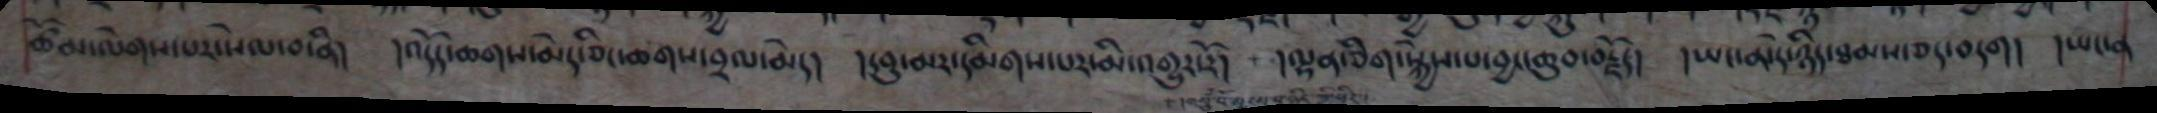ཚོམ་ལེགས་པར་སེམ་བ་ནི།    །འདོད་ཆགས་མེད་ཅིང་ཆགས་བྲལ་མེད།   །དབུ་མར་དམིགས་པར་མི་འགྱུར།   །ལྷན་ཅིག་སྐྱེས་པ་བྱང་ཆུབ་བརྗོད།  །ཡང་མེད་ཉིད་ཐམས་ཅད་བདག།  །ཡང་ན་
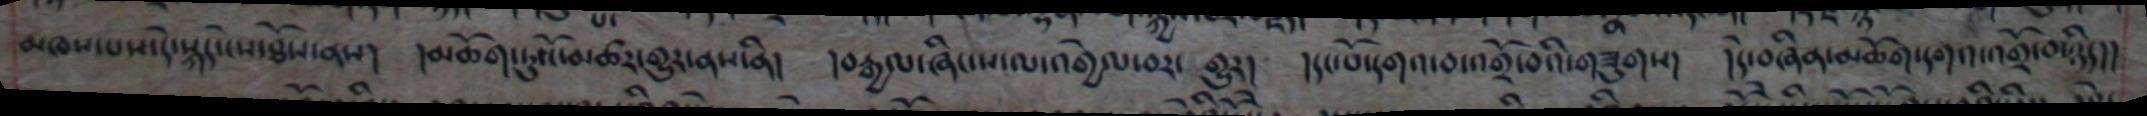མཁས་པས་དེ་སྐད་ངེས་ཐོས་ནས། །མཆོག་ཏུ་ངོ་མཚར་གྱུར་ནས་ནི། །བརྒྱལ་ཞིང་ས་ལ་འགྱེལ་བར་ གྱུར། །དང་པོ་དགའ་བ་འགྲོ་བའི་གཟུགས། །དེ་བཞིན་མཆོག་དགའ་འགྲོ་བ་ཉིད།།
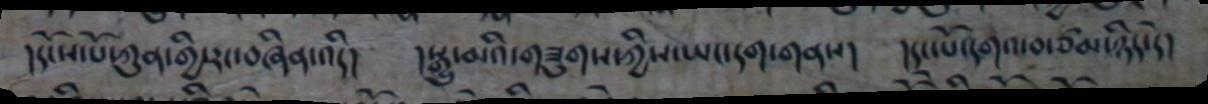།དངོས་པོ་ཀུན་གྱི་རང་བཞིན་འདི། །སྒྱུ་མའི་གཟུགས་ཀྱིས་ཡང་དག་གནས། །དང་པོ་དགའ་བ་ཙམ་ཉིད་དེ།
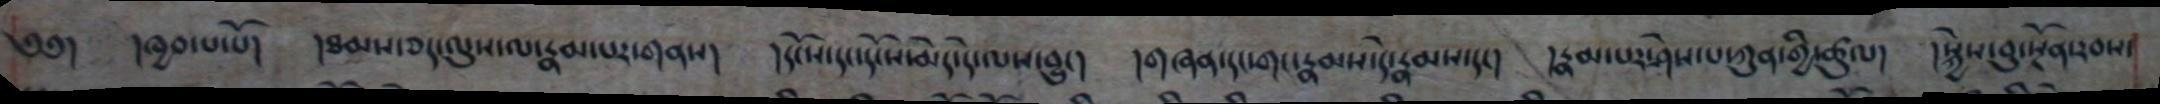༄༅། །ཁྱབ་པ་པོ། །ཐམས་ཅད་ལུས་ལ་རྣམ་པར་གནས། །དངོས་དང་དངོས་མེད་དེ་ལས་བྱུང། །གཞན་དང་གང་རྣམས་དེ་རྣམས་དང། །རྣམ་པར་ཤེས་པ་ཀུན་གྱི་ཚུལ། །སྐྱེས་བུ་སྔོན་རབས་
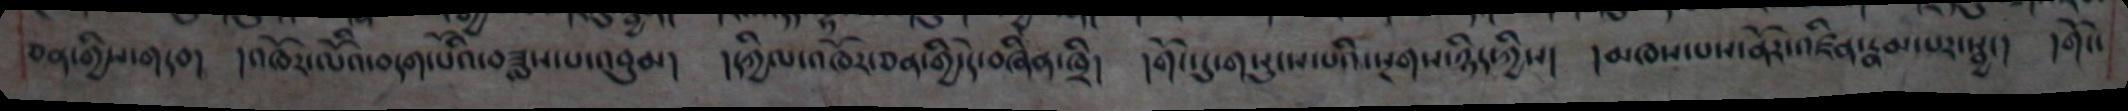ཅན་གྱིས་གདབ། །འཁོར་ལོའི་བདག་པོའི་བཟླས་པ་འབུམ། །དཀྱིལ་འཁོར་ཅན་གྱི་དེ་བཞིན་ཁྲི། །གོང་དུ་གསུངས་པའི་སྔགས་ཉིད་ཀྱིས། །མཁས་པས་ནོར་འཛིན་རྣམ་པར་སྦྱང། །གོང་
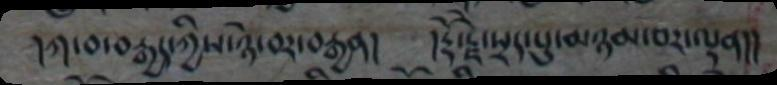།ཀ་བ་བརྒྱད་ཀྱིས་ཉེ་བར་བརྒྱན། །རྡོ་རྗེ་སྲད་པུ་མཉམ་པར་ལྡན།།
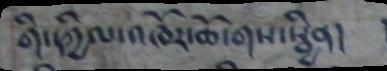གི་དཀྱིལ་འཁོར་ཆོ་གས་སྦྱིན།
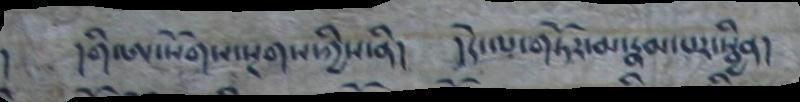། །གི་ཨ་སོགས་སྔགས་ཀྱིས་ནི། །དེ་ལ་གཏོར་མ་རྣམ་པར་སྦྱིན།
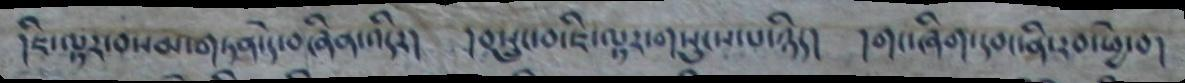།ཇི་ལྟར་བསམ་གཏན་དེ་བཞིན་འདིར། །བསྲུང་བ་ཇི་ལྟར་གསུངས་པ་ཉིད། །གང་ཞིག་དབང་ནི་རབ་ཕྱེ་བ།
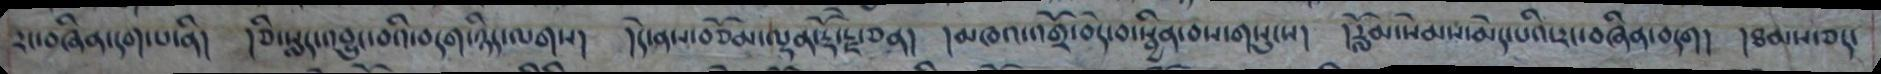རང་བཞིན་དག་པ་ནི། །ཅི་སླད་འབྱུང་བའི་བདག་ཉིད་ལགས། །དེ་ནས་བཅོམ་ལྡན་རྡོ་རྗེ་ཅན། །མཁའ་འགྲོ་བདེ་བ་སྦྱིན་བས་གསུངས། །རློམ་སེམས་མེད་པའི་རང་བཞིན་བདག། །ཐམས་ཅད་
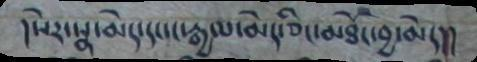།སེར་སྣ་མེད་དང་ང་རྒྱལ་མེད་ཅིང་མཐོང་བྱ་མེད།།
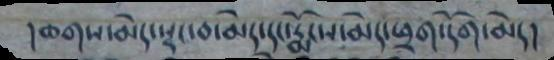།ཆགས་མེད་སྡང་བ་མེད་དང་རྨོངས་མེད་ཕྲག་དོག་མེད།
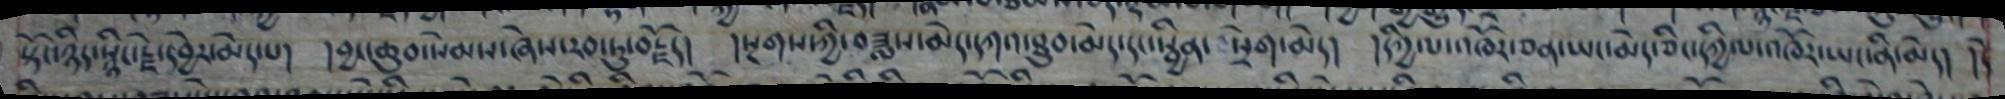སྟོང་ཉིད་སྙིང་རྗེ་དབྱེར་མེད་པ། །བྱང་ཆུབ་སེམས་ཞེས་རབ་ཏུ་བརྗོད། །སྔགས་ཀྱི་བཟླས་མེད་དཀའ་ཐུབ་མེད་དང་སྦྱིན་ སྲེག་མེད། །དཀྱིལ་འཁོར་ཅན་ཡང་མེད་ཅིང་དཀྱིལ་འཁོར་ཡང་ནི་མེད། །དེ་
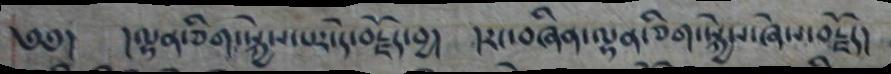༄༅། །ལྷན་ཅིག་སྐྱེས་པར་དེ་བརྗོད་བྱ། །རང་བཞིན་ལྷན་ཅིག་སྐྱེས་ཞེས་བརྗོད།
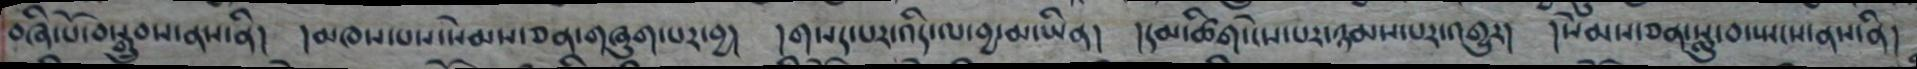བཞི་པོ་བསྒྲུབས་ནས་ནི། །མཁས་པས་སེམས་ཅན་གཞུག་པར་བྱ། །གསད་པར་འདི་ལ་བྱ་མ་ཡིན། །དམ་ཚིག་ངེས་པར་ཉམས་པར་འགྱུར། །སེམས་ཅན་སླུ་བ་སྤངས་ནས་ནི།
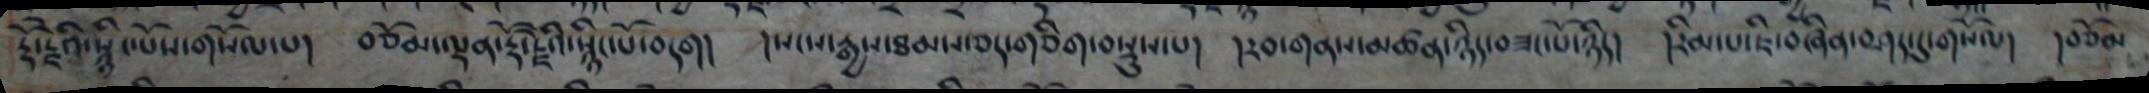རྡོ་རྗེའི་སྙིང་པོས་གསོལ་པ། བཅོམ་ལྡན་རྡོ་རྗེའི་སྙིང་པོ་བདག། །སངས་རྒྱས་ཐམས་ཅད་གཅིག་བསྡུས་པ། །རབ་གནས་མཚན་ཉིད་བཟང་པོ་ཉིད། །རིམ་པ་ཇི་བཞིན་བཤད་དུ་གསོལ། །བཅོམ
